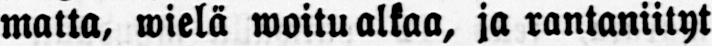matta, wielä woitu alkaa, ja rantaniityt
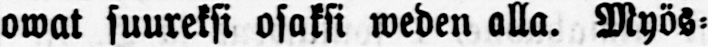owat suureksi osaksi weden alla. Myös-
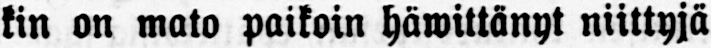kin on mato paikoin häwittänyt niittyjä
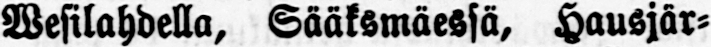wesilahdella, Sääksmäessä, Hausjär-
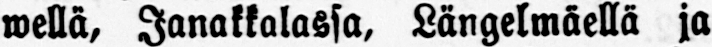wellä, Janakkalassa, Längelmäellä ja
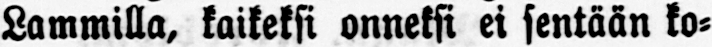Lammilla, kaikeksi onneksi ei sentään ko-
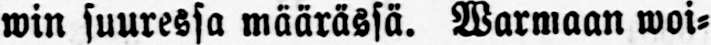win suuressa määrässä. Warmaan woi-
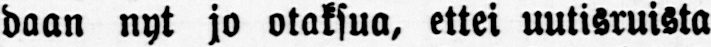daan nyt jo otaksua, ettei uutisruista
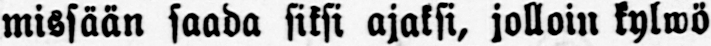missään saada siksi ajaksi, jolloin kylwö
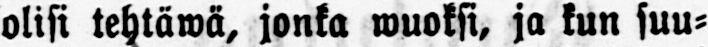olisi tehtäwä, jonka wuoksi, ja kun suu-
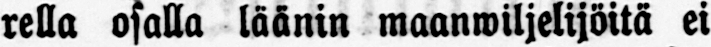rella osalla läänin maanwiljelijöitä ei
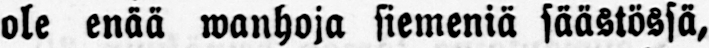ole enää wanhoja siemeniä säästössä,
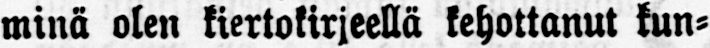minä olen kiertokirjeellä kehottanut kun-
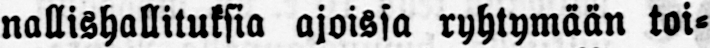nallishallituksia ajoissa ryhtymään toi-
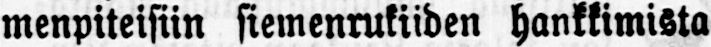menpiteisiin sieinenrukiiden hankkimista
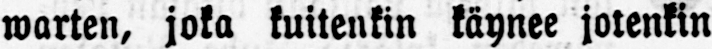warten, joka kuitenkin käynee jotenkin
